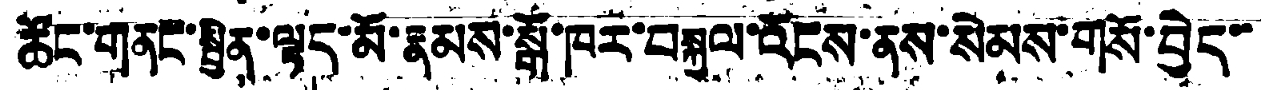ཚོང་གནང་སྦྱིན་ལྟད་མོ་རྣམས་སྒོ་ཁར་བསྐུལ་འོངས་ནས་སེམས་གསོ་བྱེད་་
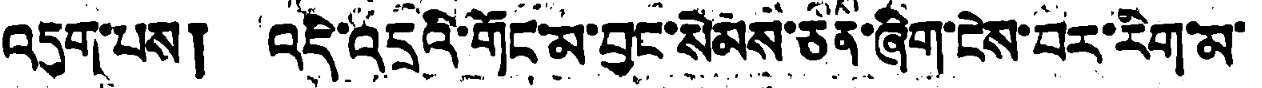འདུག་པས། འདི་འདྲའི་གོང་མ་བྱང་སེམས་ཅན་ཞིག་ངེས་པར་རིག་མ་
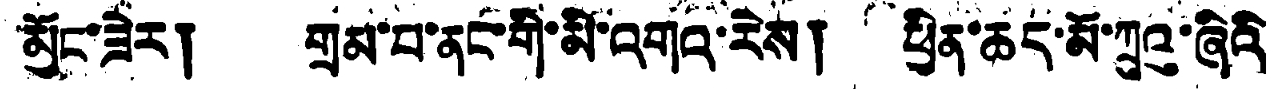མྱོང་ཟེར། གྲམ་པ་ནང་གི་མི་འགའ་རེས། ཕྱིན་ཆད་མོ་ཀྲུའུ་ཞིའི
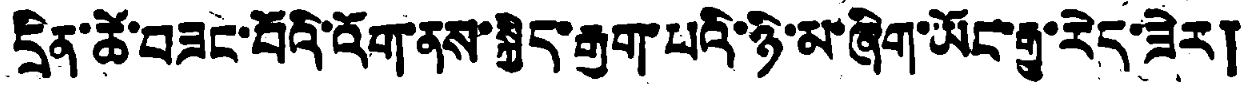དྲིན་ཚེ་བཟང་བོའི་འོག་ནས་སྐྱིད་རྒྱག་པའི་ཉི་མ་ཞིག་ཡོང་རྒྱུ་རེད་ཟེར།
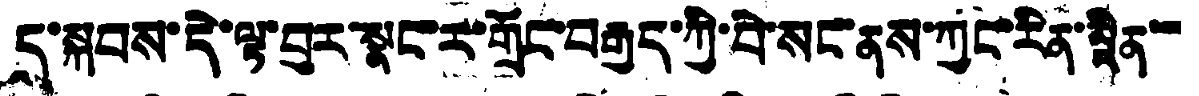ད་སྐབས་དེ་ལྟ་བུར་སྣང་ར་གྲོང་བརྒྱད་ཀྱི་བེ་སང་ནས་ཀྱང་རིན་མཱིན་་
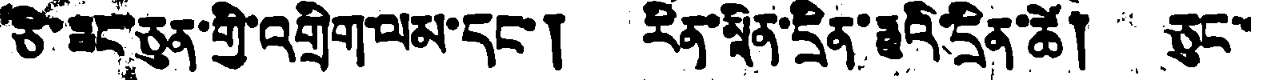ཅི་ཧྥང་ཅུན་གྱི་འགྲིག་ལམ་དང་། རིན་མཱིན་དྲིན་ཧྥུའི་དྲིན་ཚེ། ཅུང་་
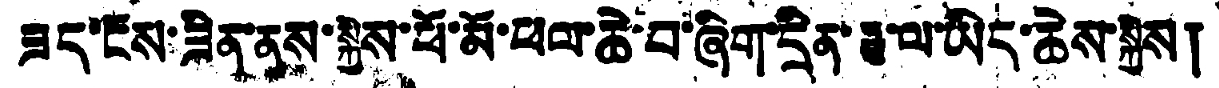ཟད་ངོས་ཟིན་ནས་སྐྱེས་ཕོ་མོ་ཕལ་ཆེ་བ་ཞིག་དྲིན་ཧྥུ་ལ་ཡིད་ཆེས་སྐྱེས།
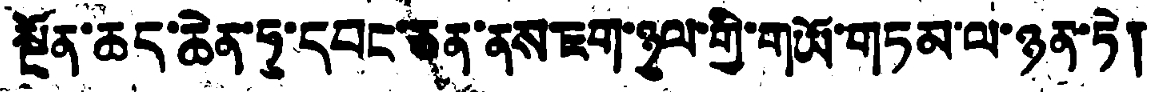སྔོན་ཆད་ཆེན་ཏུ་དབང་ཅན་ནས་ཇག་ཉུལ་གྱི་གཡོ་གཏམ་ལ་ཉན་ཏེ།
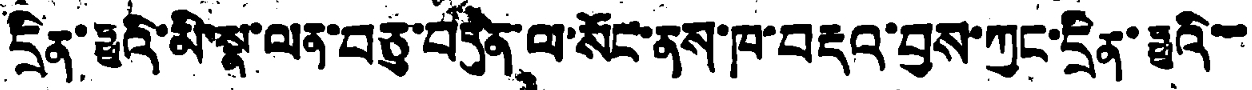དྲིན་ཧྥུའི་མི་སྣ་ལན་བཅུ་བདུན་ལ་སོང་ནས་ཁ་བརྡའ་བྱས་ཀྱང་དྲིན་ཧྥུའི་་
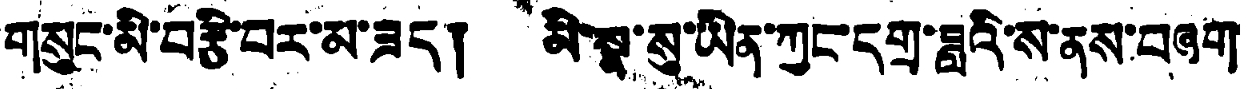གསུང་མི་བརྩི་བར་མ་ཟད། མི་སྣ་སུ་ཡིན་ཀྱང་དགྲ་ཟླའི་ས་ནས་བཞག
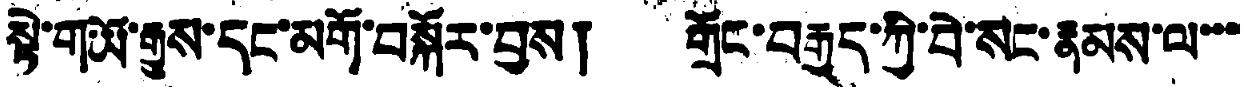སྟེ་གཡོ་རྒྱུས་དང་མགོ་བསྐོར་བྱས། གྲོང་བརྒྱད་ཀྱི་བེ་སང་རྣམས་ལ་་་
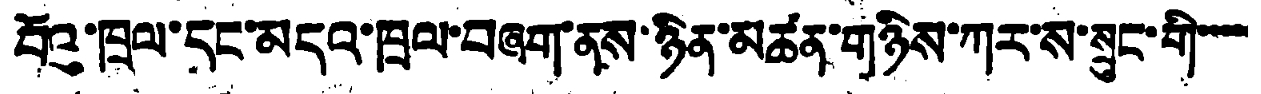པོའུ་ཁྲལ་དང་མདའ་ཁྲལ་བཞག་ནས་ཉིན་མཚན་གཉིས་ཀར་ས་སྲུང་གི་་་་
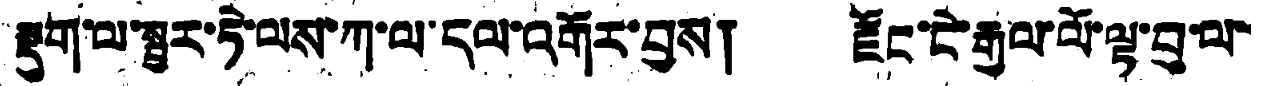སྡུག་ལ་སྦྱར་ཏེ་ལས་ཀ་ལ་དལ་འགོར་བྱས། རྫོང་ངེ་རྒྱལ་ལོ་ལྟ་བུ་ལ་
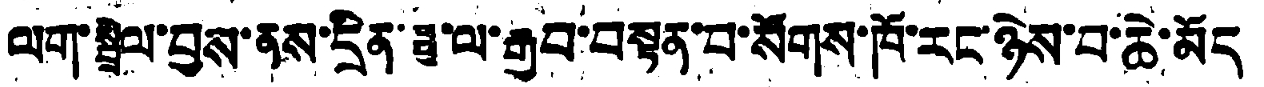ལག་སྦྲིལ་བྱས་ནས་དྲིན་ཧྥུ་ལ་རྒྱབ་བསྟན་པ་སོགས་ཁོ་རང་ཉེས་བ་ཆེ་མོད
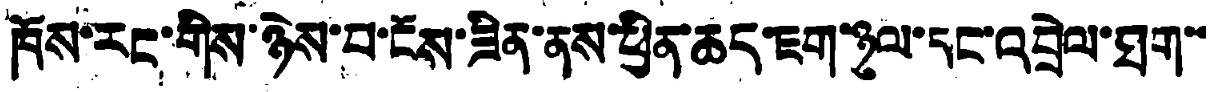ཁོས་རང་གིས་ཉེས་བ་ངོས་ཟིན་ནས་ཕྱིན་ཆད་ཇག་ཉུལ་དང་འབྲེལ་ཐག་་
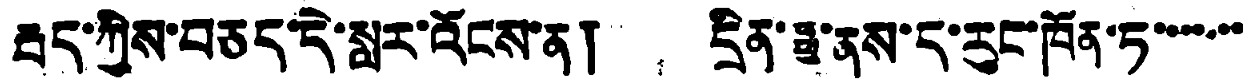རྦད་ཀྱིས་བཅད་དེ་སླར་འོངས་ན། དྲིན་ཧྥུ་ནས་ད་རུང་ཁོན་ཏ་་་་་་་
